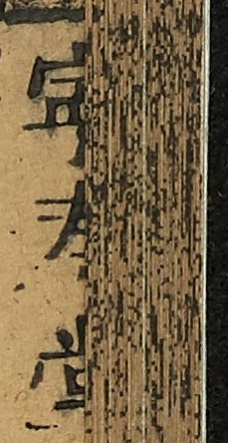寧壽堂
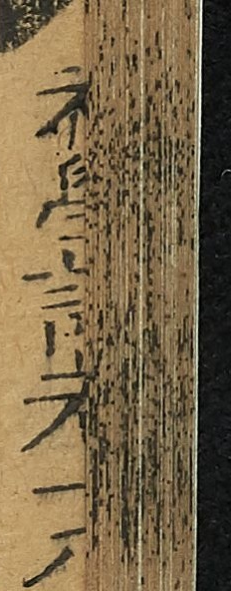初學記卷十八
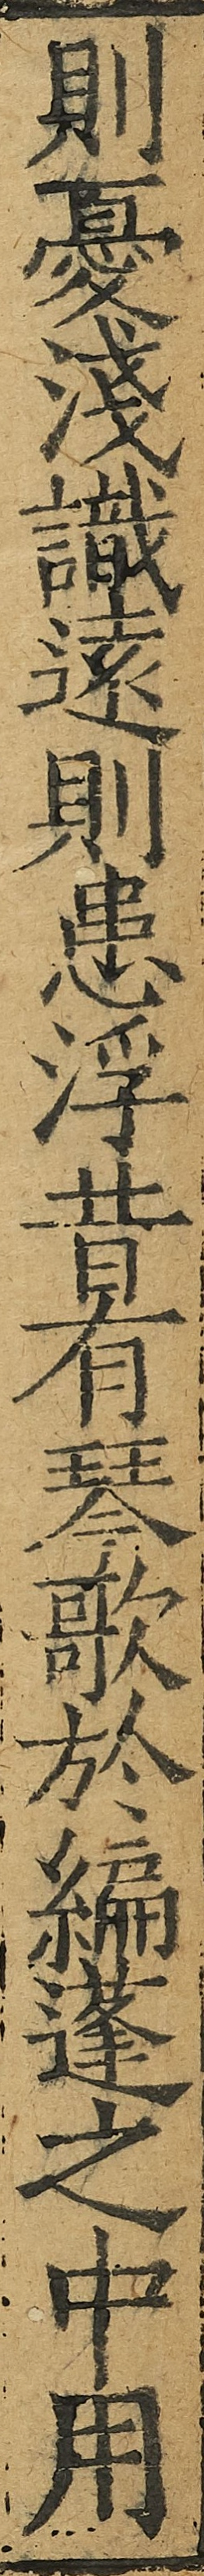則憂淺識遠則患浮昔有琴歌於編蓬之中用
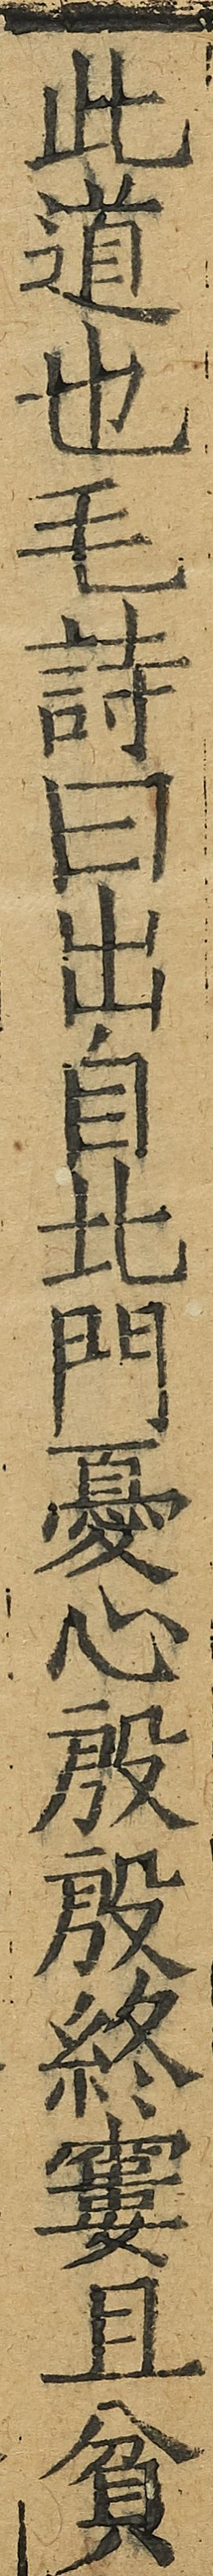此道也毛詩曰出自北門憂心殷殷終窶且貧
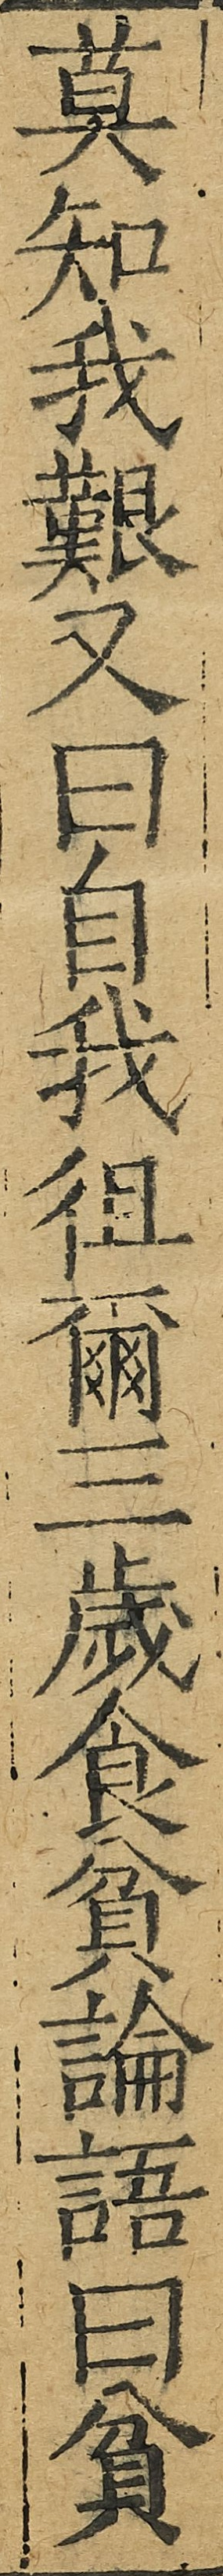莫知我艱又曰自我徂爾三歲食貧論語曰貧
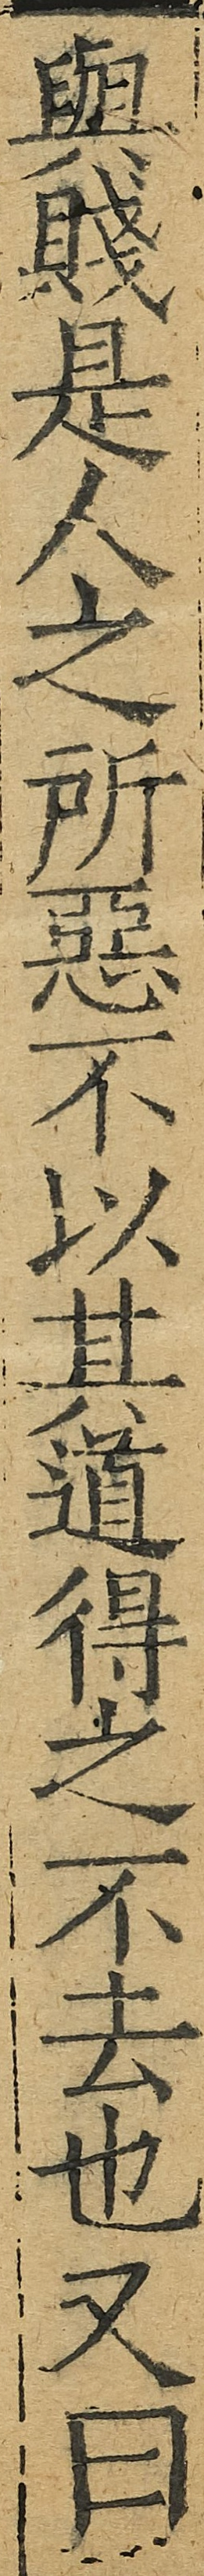與賤是人之所惡不以其道得之不去也又曰
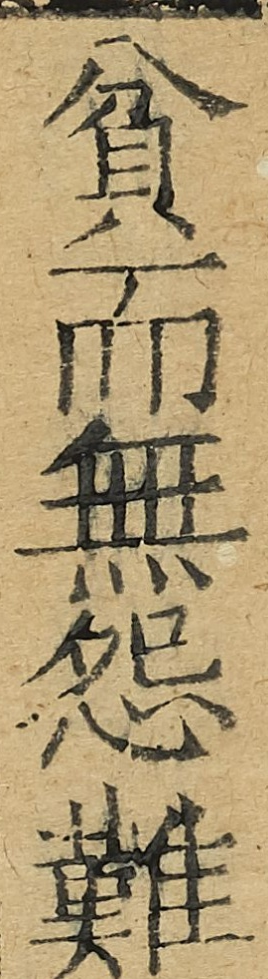貧而無怨難
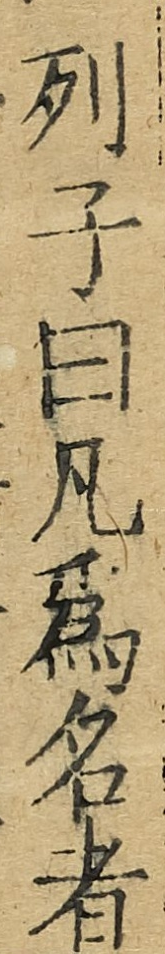列子曰凡為名者
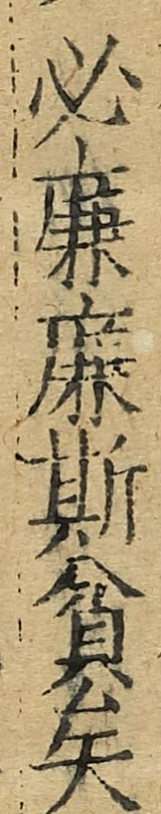必廉廉斯貧矣
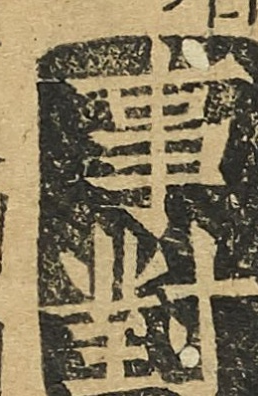事對
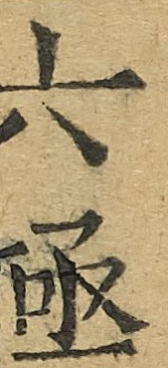六極
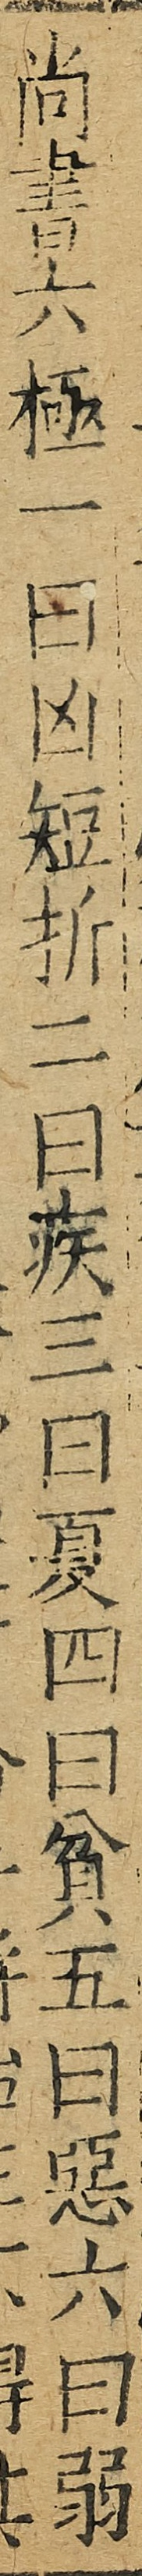尚書六極一曰凶短折二曰疾三曰憂四曰貧五曰惡六曰弱
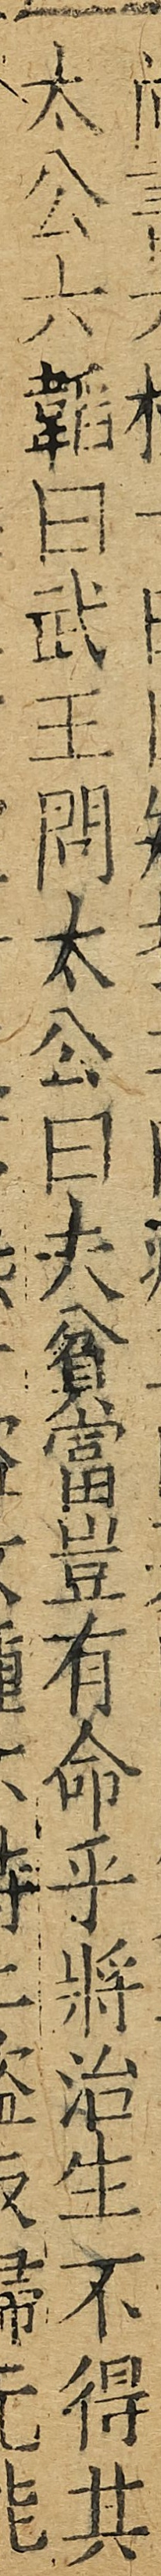太公六韜曰武王問太公曰夫貧富豈有命乎將治生不得其
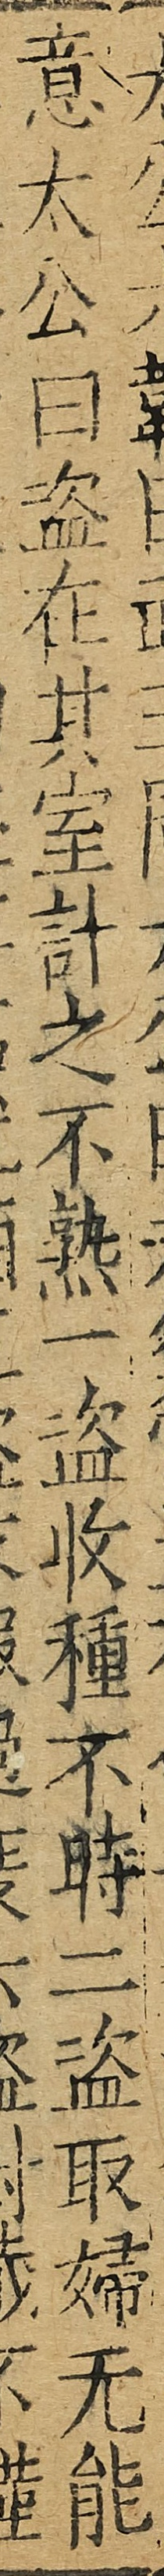意太公曰盜在其室計之不熟一盜收種不時二盜取婦無能
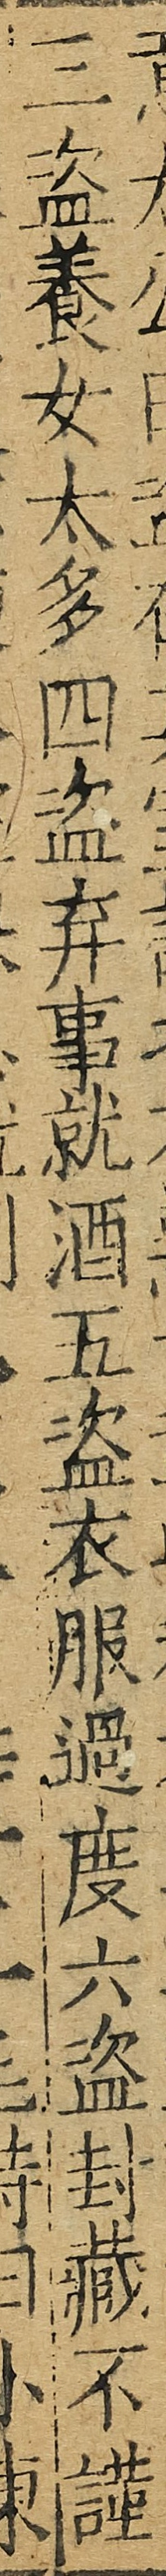三盜養女太多四盜棄事就酒五盜衣服過度六盜封藏不謹
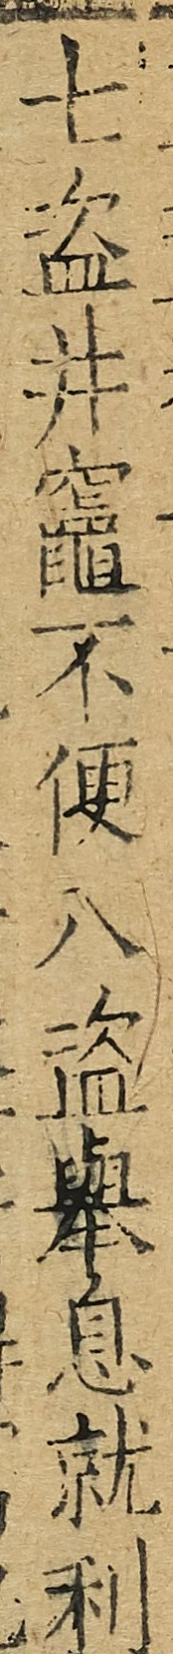七盜井竈不便八盜舉息就利
